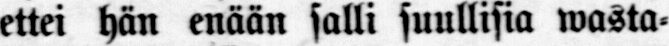ettei hän enään salli suullisia wasta-
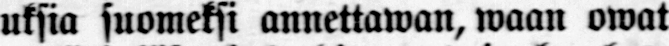uksia suomeksi annettawan, waan owat
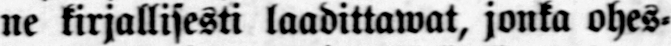ne kirjallisesti laadittawat, jonka ohes-
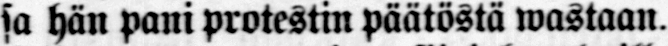sa hän pani protestin päätöstä wastaan.
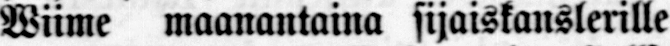Wiime maanantaina sijaiskanslerille
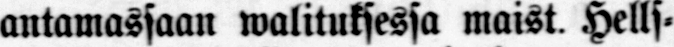antamassaan walituksessa maist. Hells-
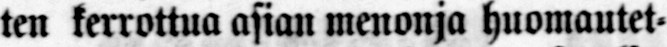ten kerrottua asian menonja huomautet-
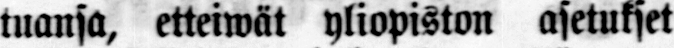tuansa, etteiwät yliopiston asetukset
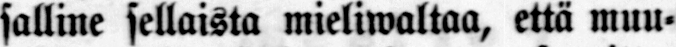salline sellaista mieliwaltaa, että muu-
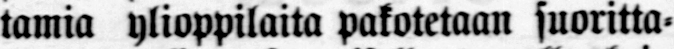tamia ylioppilaita pakotetaan suoritta-
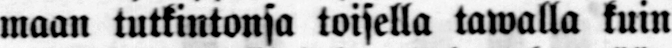maan tutkintonsa toisella tawalla kuin
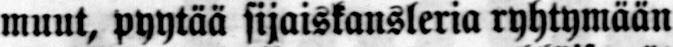muut, pyytää sijaiskansleria ryhtymään
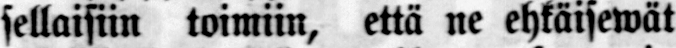sellaisiin toimiin, että ne ehkäisewät
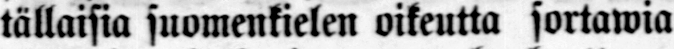tällaisia suomenkielen oikeutta sortawia
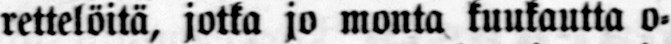rettelöttä, jotka jo monta kuukautta o-
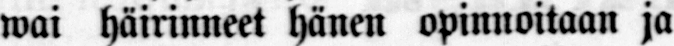wai häirinneet hänen opinnoitaan ja
